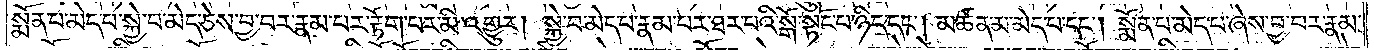སྨོན་པ་མེད་པ་སྐྱེ་བ་མེད་ཅེས་བྱ་བར་རྣམ་པར་རྟོག་པར་མི་འགྱུར། སྐྱེ་བ་མེད་པ་རྣམ་པར་ཐར་བའི་སྒོ་སྟོང་པ་ཉིད་དང༌། མཚན་མ་མེད་པ་དང༌། སྨོན་པ་མེད་པ་ཞེས་བྱ་བར་རྣམ་
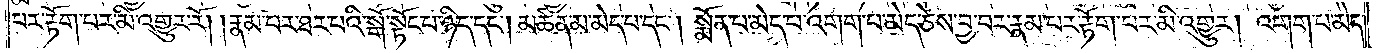པར་རྟོག་པར་མི་འགྱུར་རོ། །རྣམ་པར་ཐར་པའི་སྒོ་སྟོང་པ་ཉིད་དང་༑ མཚན་མ་མེད་པ་དང༌། སྨོན་པ་མེད་པ་འགག་པ་མེད་ཅེས་བྱ་བར་རྣམ་པར་རྟོག་པར་མི་འགྱུར། འགག་པ་མེད་
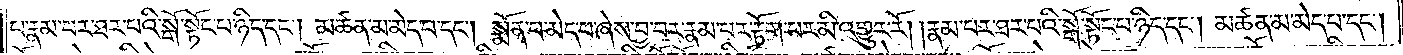པ་རྣམ་པར་ཐར་པའི་སྒོ་སྟོང་པ་ཉིད་དང༌། མཚན་མ་མེད་པ་དང༌། སྨོན་པ་མེད་པ་ཞེས་བྱ་བར་རྣམ་པར་རྟོག་པར་མི་འགྱུར་རོ། །རྣམ་པར་ཐར་པའི་སྒོ་སྟོང་པ་ཉིད་དང༌། མཚན་མ་མེད་པ་དང༌།
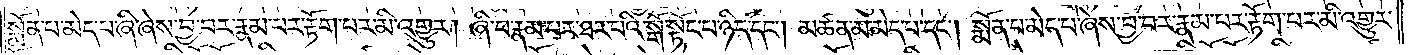སྨོན་པ་མེད་པ་ཞི་ཞེས་བྱ་བར་རྣམ་པར་རྟོག་པར་མི་འགྱུར། ཞི་བ་རྣམ་པར་ཐར་པའི་སྒོ་སྟོང་པ་ཉིད་དང༌། མཚན་མ་མེད་པ་དང༌། སྨོན་པ་མེད་པ་ཞེས་བྱ་བར་རྣམ་པར་རྟོག་པར་མི་འགྱུར་
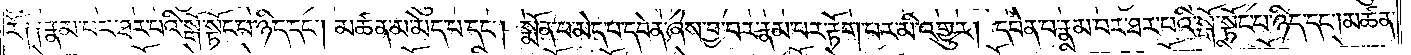རོ༏ ༏རྣམ་པར་ཐར་པའི་སྒོ་སྟོང་པ་ཉིད་དང༌། མཚན་མ་མེད་པ་དང༌། སྨོན་པ་མེད་པ་དབེན་ཞེས་བྱ་བར་རྣམ་པར་རྟོག་པར་མི་འགྱུར། དབེན་པ་རྣམ་པར་ཐར་པའི་སྒོ་སྟོང་པ་ཉིད་དང༌། མཚན་
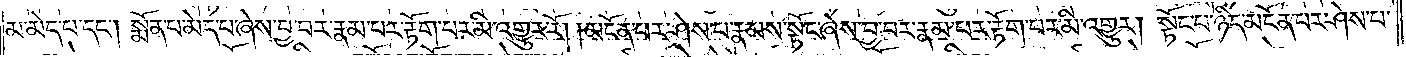མ་མེད་པ་དང༌། སྨོན་པ་མེད་པ་ཞེས་བྱ་བར་རྣམ་པར་རྟོག་པར་མི་འགྱུར་རོ། །མངོན་པར་ཤེས་པ་རྣམས་སྟོང་ཞེས་བྱ་བར་རྣམ་པར་རྟོག་པར་མི་འགྱུར། སྟོང་པ་ཉིད་མངོན་པར་ཤེས་པ་
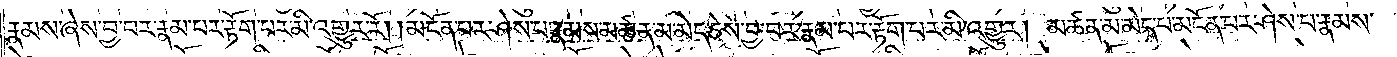རྣམས་ཞེས་བྱ་བར་རྣམ་པར་རྟོག་པར་མི་འགྱུར་རོ། །མངོན་པར་ཤེས་པ་རྣམས་མཚན་མ་མེད་ཅེས་བྱ་བར་རྣམ་པར་རྟོག་པར་མི་འགྱུར། མཚན་མ་མེད་པ་མངོན་པར་ཤེས་པ་རྣམས་
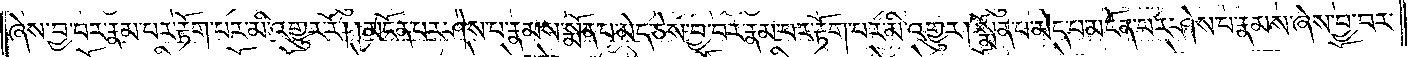ཞེས་བྱ་བར་རྣམ་པར་རྟོག་པར་མི་འགྱུར་རོ། །མངོན་པར་ཤེས་པ་རྣམས་སྨོན་པ་མེད་ཅེས་བྱ་བར་རྣམ་པར་རྟོག་པར་མི་འགྱུར། སྨོན་པ་མེད་པ་མངོན་པར་ཤེས་པ་རྣམས་ཞེས་བྱ་བར་
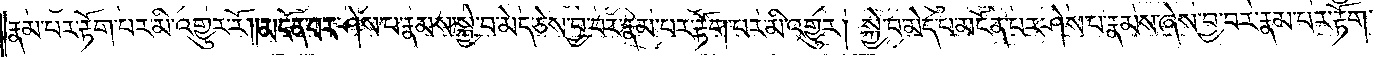རྣམ་པར་རྟོག་པར་མི་འགྱུར་རོ། །མངོན་པར་ཤེས་པ་རྣམས་སྐྱེ་བ་མེད་ཅེས་བྱ་བར་རྣམ་པར་རྟོག་པར་མི་འགྱུར། སྐྱེ་བ་མེད་པ་མངོན་པར་ཤེས་པ་རྣམས་ཞེས་བྱ་བར་རྣམ་པར་རྟོག་
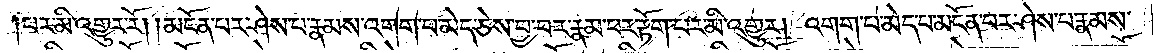པར་མི་འགྱུར་རོ། །མངོན་པར་ཤེས་པ་རྣམས་འགག་པ་མེད་ཅེས་བྱ་བར་རྣམ་པར་རྟོག་པར་མི་འགྱུར། འགག་པ་མེད་པ་མངོན་པར་ཤེས་པ་རྣམས་
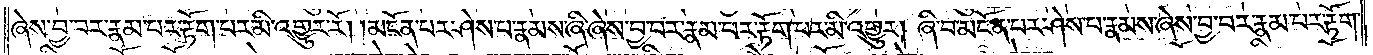ཞེས་བྱ་བར་རྣམ་པར་རྟོག་པར་མི་འགྱུར་རོ། །མངོན་པར་ཤེས་པ་རྣམས་ཞི་ཞེས་བྱ་བར་རྣམ་པར་རྟོག་པར་མི་འགྱུར། ཞི་བ་མངོན་པར་ཤེས་པ་རྣམས་ཞེས་བྱ་བར་རྣམ་པར་རྟོག་
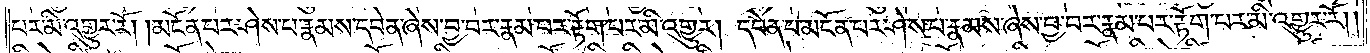པར་མི་འགྱུར་རོ། །མངོན་པར་ཤེས་པ་རྣམས་དབེན་ཞེས་བྱ་བར་རྣམ་པར་རྟོག་པར་མི་འགྱུར། དབེན་པ་མངོན་པར་ཤེས་པ་རྣམས་ཞེས་བྱ་བར་རྣམ་པར་རྟོག་པར་མི་འགྱུར་རོ། །
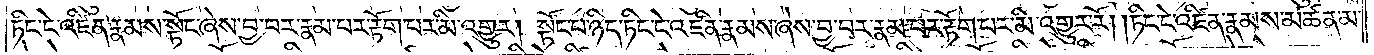ཏིང་ངེ་འཛིན་རྣམས་སྟོང་ཞེས་བྱ་བར་རྣམ་པར་རྟོག་པར་མི་འགྱུར། སྟོང་པ་ཉིད་ཏིང་ངེ་འཛིན་རྣམས་ཞེས་བྱ་བར་རྣམ་པར་རྟོག་པར་མི་འགྱུར་རོ། །ཏིང་ངེ་འཛིན་རྣམས་མཚན་མ་
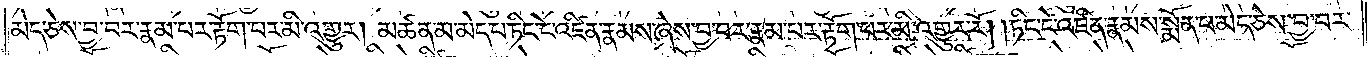མེད་ཅེས་བྱ་བར་རྣམ་པར་རྟོག་པར་མི་འགྱུར། མཚན་མ་མེད་པ་ཏིང་ངེ་འཛིན་རྣམས་ཞེས་བྱ་བར་རྣམ་པར་རྟོག་པར་མི་འགྱུར་རོ། །ཏིང་ངེ་འཛིན་རྣམས་སྨོན་པ་མེད་ཅེས་བྱ་བར་
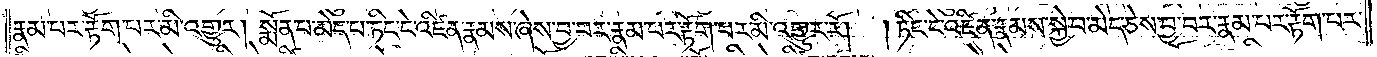རྣམ་པར་རྟོག་པར་མི་འགྱུར། སྨོན་པ་མེད་པ་ཏིང་ངེ་འཛིན་རྣམས་ཞེས་བྱ་བར་རྣམ་པར་རྟོག་པར་མི་འགྱུར་རོ། །ཏིང་ངེ་འཛིན་རྣམས་སྐྱེ་བ་མེད་ཅེས་བྱ་བར་རྣམ་པར་རྟོག་པར་
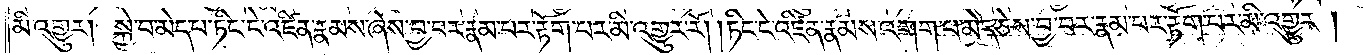མི་འགྱུར། སྐྱེ་བ་མེད་པ་ཏིང་ངེ་འཛིན་རྣམས་ཞེས་བྱ་བར་རྣམ་པར་རྟོག་པར་མི་འགྱུར་རོ། །ཏིང་ངེ་འཛིན་རྣམས་འགག་པ་མེད་ཅེས་བྱ་བར་རྣམ་པར་རྟོག་པར་མི་འགྱུར།
